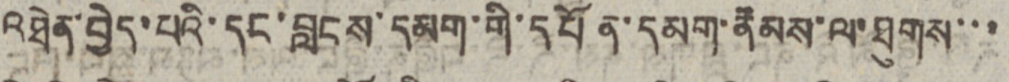འཐེན་བྱེད་པའི་དང་བླངས་དམག་གི་དཔོན་དམག་རྣམས་ལ་ཐུགས་་་
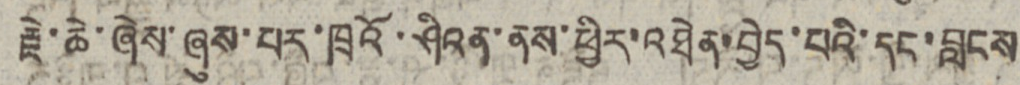རྗེ་ཆེ་ཞེས་ཞུས་པར་ཁྲའོ་ཤིའན་ནས་ཕྱིར་འཐེན་བྱེད་པའི་དང་བླངས
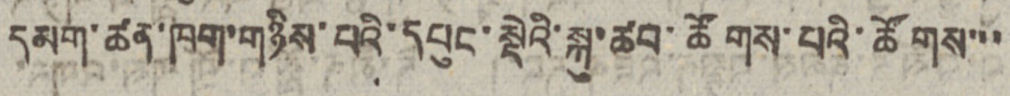དམག་ཚན་ཁག་གཉིས་པའི་དཔུང་སྡེའ་སྐུ་ཚབ་ཚོགས་པའི་ཚོགས་་་
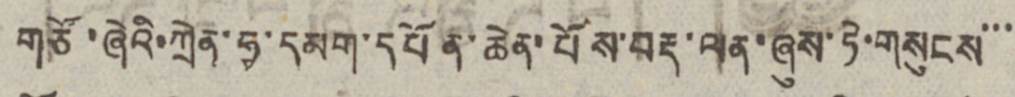གཙོ་ཞེའི་ཀྲེན་ཧྭ་དམག་དཔོན་ཆེན་པོས་བརྡ་ལན་ཞུས་ཏེ་གསུངས་་་
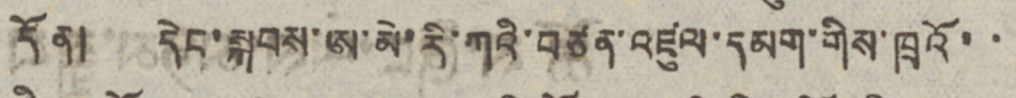དོན། དེང་སྐབས་ཨ་མེ་རི་ཀའི་བཙན་འཛུལ་དམག་གིས་ཁྲའོ་་
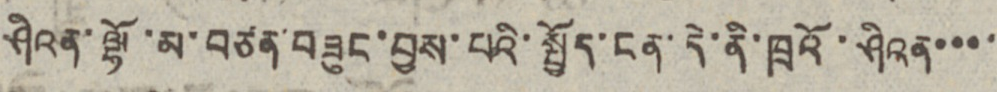ཤིའན་ལྷོ་མ་བཙན་བཟུང་བྱས་པའི་སྤྱོད་ངན་དེ་ནི་ཁྲའོ་ཤིའན་་་་
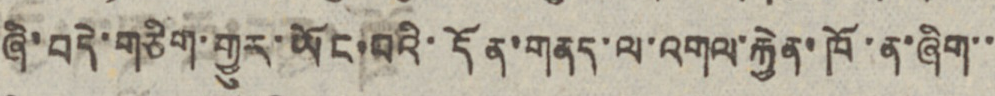ཞི་བདེ་གཅིག་གྱུར་ཡོང་བའི་དོན་གནད་ལ་འགལ་རྐྱེན་ཁོ་ན་ཞིག་་
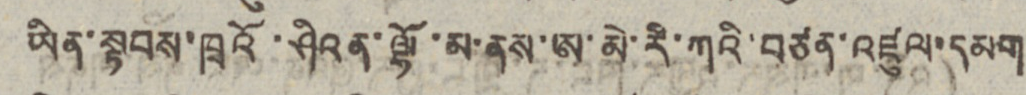ཡིན་སྟབས་ཁྲའོ་ཤིའན་ལྷོ་མ་ནས་ཨ་མེ་རི་ཀའི་བཙན་འཛུལ་དམག
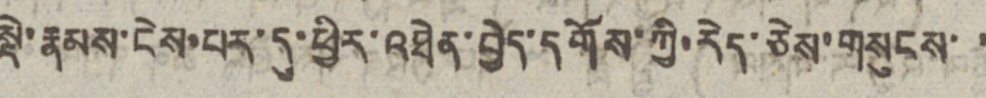སྡེ་རྣམས་ངེས་པར་དུ་ཕྱིར་འཐེན་བྱེད་དགོས་ཀྱི་རེད་ཅེས་གསུངས་ ་
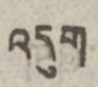འདུག
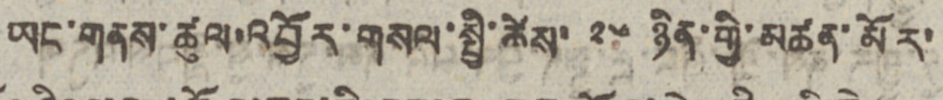ཡང་གནས་ཚུལ་འབྱོར་གསལ་སྤྱི་ཚེས་ ༢༦ ཉིན་གྱི་མཚན་མོར་
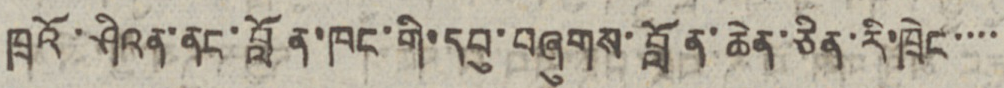ཁྲའོ་ཤིའན་ནང་བློན་ཁང་གི་དབུ་བཞུགས་བློན་ཆེན་ཅིན་རི་ཁྲེང་་་་
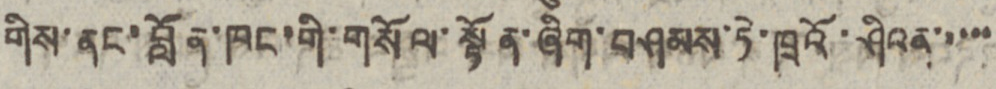གིས་ནང་བློན་ཁང་གི་གསོལ་སྟོན་ཞིག་བཤམས་ཏེ་ཁྲའོ་ཤིའན་་་་་
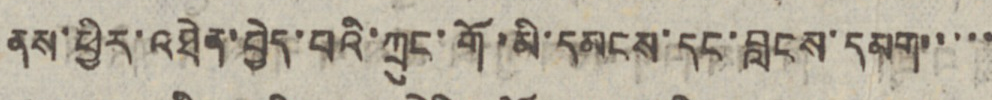ནས་ཕྱིར་འཐེན་བྱེད་པའི་ཀྲུང་གོ་མི་དམངས་དང་བླངས་དམག་་་་་
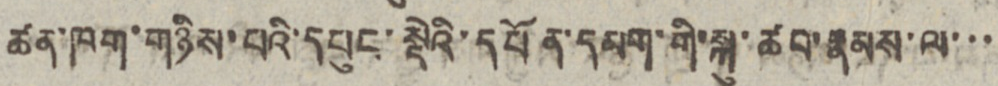ཚན་ཁག་གཉིས་པའི་དཔུང་སྡེའི་དཔོན་དམག་གི་སྐུ་ཚབ་རྣམས་ལ་་་
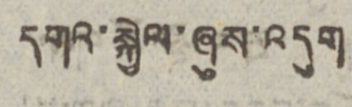དགའ་སྐྱེལ་ཞུས་འདུག
